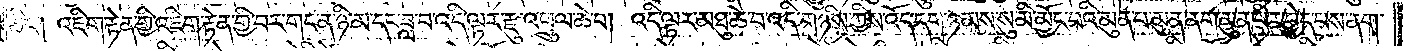ཅིང༌། འཇིག་རྟེན་གྱི་འཇིག་རྟེན་གྱི་བར་གང་ན་ཉི་མ་དང་ཟླ་བ་འདི་ལྟར་རྫུ་འཕྲུལ་ཆེ་བ། འདི་ལྟར་མཐུ་ཆེ་བ་འདི་གཉིས་ཀྱིས་འོད་དག་ཉམས་སུ་མི་མྱོང་བའི་མུན་པ་མུན་ནག་མུན་པར་བྱེད་པས་ནག་
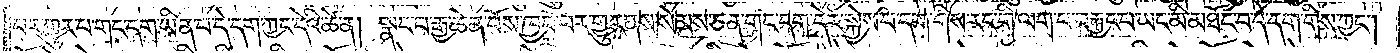པར་གྱུར་པ་གང་དག་ཡིན་པ་དེ་དག་ཀྱང་དེའི་ཚེ་ན། སྣང་བ་རྒྱ་ཆེན་པོས་ཁྱབ་པར་གྱུར་ནས་སེམས་ཅན་གང་དག་དེར་སྐྱེས་པ་དག་གིས་རང་གི་ལག་པ་བརྐྱང་པ་ཡང་མི་མཐོང་བ་དེ་དག་གིས་ཀྱང༌།
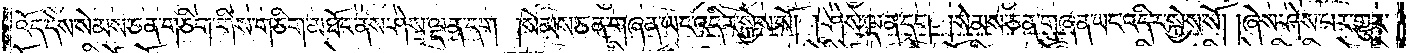འོད་དེས་སེམས་ཅན་གཅིག་གིས་གཅིག་མཐོང་ནས་ཤེས་ལྡན་དག །སེམས་ཅན་གཞན་ཡང་འདིར་སྐྱེས་སོ། །ཤེས་ལྡན་དག །སེམས་ཅན་གཞན་ཡང་འདིར་སྐྱེས་སོ། །ཞེས་ཤེས་པར་གྱུར་
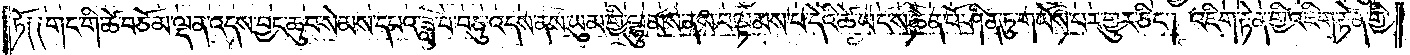ཏོ༑ ༑གང་གི་ཚེ་བཅོམ་ལྡན་འདས་བྱང་ཆུབ་སེམས་དཔའ་ཟླ་བ་བཅུ་འདས་ནས་ཡུམ་གྱི་ལྷུམས་ནས་བལྟམས་པ་དེའི་ཚེ་ཡང་ས་ཆེན་པོ་ཤིན་ཏུ་གཡོས་པར་གྱུར་ཅིང༌། འཇིག་རྟེན་གྱི་འཇིག་རྟེན་གྱི་
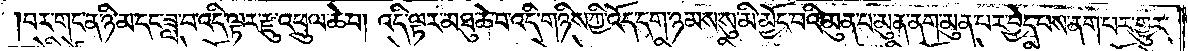བར་གང་ན་ཉི་མ་དང་ཟླ་བ་འདི་ལྟར་རྫུ་འཕྲུལ་ཆེ་བ། འདི་ལྟར་མཐུ་ཆེ་བ་འདི་གཉིས་ཀྱི་འོད་དག་ཉམས་སུ་མི་མྱོང་བའི་མུན་པ་མུན་ནག་མུན་པར་བྱེད་པས་ནག་པར་གྱུར་
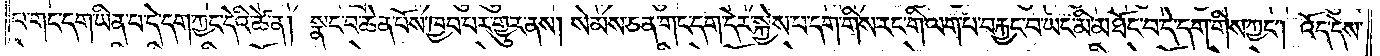པ་གང་དག་ཡིན་པ་དེ་དག་ཀྱང་དེའི་ཚེ་ན། སྣང་བ་ཆེན་པོས་ཁྱབ་པར་གྱུར་ནས། སེམས་ཅན་གང་དག་དེར་སྐྱེས་པ་དག་གིས་རང་གི་ལག་པ་བརྐྱང་བ་ཡང་མི་མཐོང་བ་དེ་དག་གིས་ཀྱང༌། འོད་དེས་
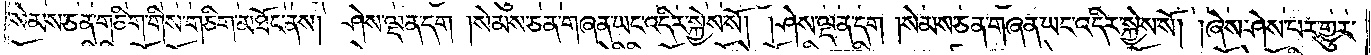སེམས་ཅན་གཅིག་གིས་གཅིག་མཐོང་ནས། ཤེས་ལྡན་དག །སེམས་ཅན་གཞན་ཡང་འདིར་སྐྱེས་སོ། །ཤེས་ལྡན་དག །སེམས་ཅན་གཞན་ཡང་འདིར་སྐྱེས་སོ། །ཞེས་ཤེས་པར་གྱུར་
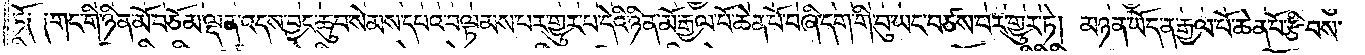ཏོ༑ ༑གང་གི་ཉིན་མོ་བཅོམ་ལྡན་འདས་བྱང་ཆུབ་སེམས་དཔའ་བལྟམས་པར་གྱུར་པ་དེའི་ཉིན་མོ་རྒྱལ་པོ་ཆེན་པོ་བཞི་དག་གི་བུ་ཡང་བཙས་པར་གྱུར་ཏེ། མཉན་ཡོད་ན་རྒྱལ་པོ་ཆེན་པོ་རྩིབས་
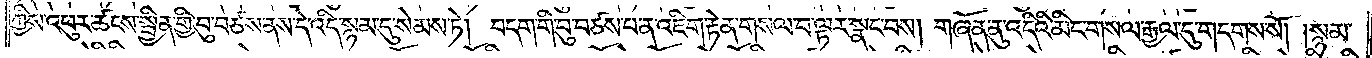ཀྱིས་འཕུར་ཚངས་སྦྱིན་གྱི་བུ་བཙས་ནས་དེ་འདི་སྙམ་དུ་སེམས་ཏེ། བདག་གི་བུ་བཙས་པ་ན་འཇིག་རྟེན་གསལ་བ་ལྟར་སྣང་བས། གཞོན་ནུ་འདིའི་མིང་གསལ་རྒྱལ་དུ་གདགས་སོ། །སྙམ་
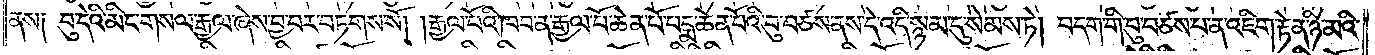ནས༑  བུ་དེའི་མིང་གསལ་རྒྱལ་ཞེས་བྱ་བར་བཏགས་སོ། །རྒྱལ་པོའི་ཁབ་ན་རྒྱལ་པོ་ཆེ་པོ་པདྨ་ཆེན་པོའི་བུ་བཙས་ནས་དེ་འདི་སྙམ་དུ་སེམས་ཏེ། བདག་གི་བུ་བཙས་པ་ན་འཇིག་རྟེན་ཉི་མའི་
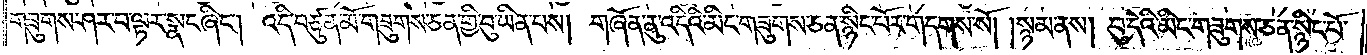གཟུགས་ཤར་བ་ལྟར་སྣང་ཞིང༌། འདི་བཙུན་མོ་གཟུགས་ཅན་གྱི་བུ་ཡིན་པས། གཞོན་ནུ་འདིའི་མིང་གཟུགས་ཅན་སྙིང་པོར་གདགས་སོ། །སྙམ་ནས། བུ་དེའི་མིང་གཟུགས་ཅན་སྙིང་པོ་
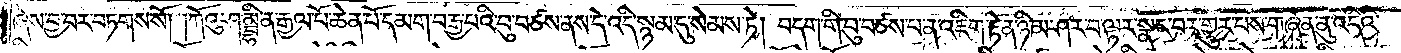ཞེས་བྱ་བར་བཏགས་སོ། །ཀོའུ་ཤམྦྷི་ན་རྒྱལ་པོ་ཆེན་པོ་དམག་བརྒྱ་པའི་བུ་བཙས་ནས་དེ་འདི་སྙམ་དུ་སེམས་ཏེ། བདག་གི་བུ་བཙས་པ་ན་འཇིག་རྟེན་ཉི་མ་ཤར་བ་ལྟར་སྣང་བར་གྱུར་པས་གཞོན་ནུ་འདིའི་
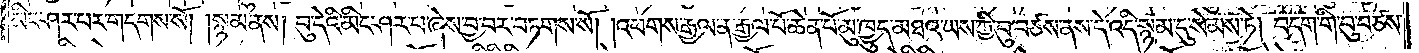མིང་ཤར་བར་གདགས་སོ། །སྙམ་ནས། བུ་དེའི་མིང་ཤར་པ་ཞེས་བྱ་བར་བཏགས་སོ། །འཕགས་རྒྱལ་ན་རྒྱལ་པོ་ཆེན་པོ་མུ་ཁྱུད་མཐའ་ཡས་ཀྱི་བུ་བཙས་ནས་དེ་འདི་སྙམ་དུ་སེམས་ཏེ། བདག་གི་བུ་བཙས་
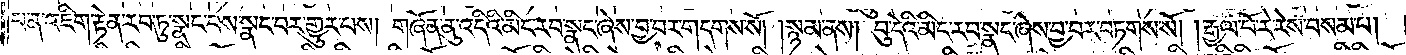པ་ན་འཇིག་རྟེན་རབ་ཏུ་སྣང་བས་སྣང་བར་གྱུར་པས། གཞོན་ནུ་འདིའི་མིང་རབ་སྣང་ཞེས་བྱ་བར་གདགས་སོ། །སྙམ་ནས། བུ་དེའི་མིང་རབ་སྣང་ཞེས་བྱ་བར་བཏགས་སོ། །རྒྱལ་པོ་རེ་རེས་བསམ་པ།
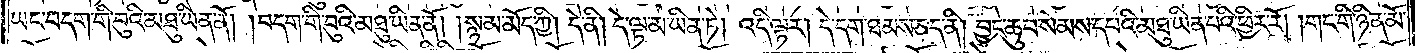ཡང་བདག་གི་བུའི་མཐུ་ཡིན་ནོ། །བདག་གི་བུའི་མཐུ་ཡིན་ནོ། །སྙམ་མོད་ཀྱི། དེ་ནི། དེ་ལྟ་མ་ཡིན་ཏེ། འདི་ལྟར། དེ་དག་ཐམས་ཅད་ནི། བྱང་ཆུབ་སེམས་དཔའི་མཐུ་ཡིན་པའི་ཕྱིར་རོ། །གང་གི་ཉིན་མོ་
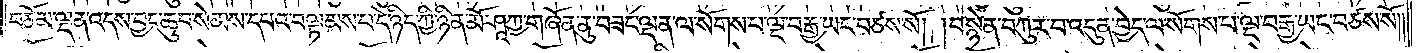བཅོམ་ལྡན་འདས་བྱང་ཆུབ་སེམས་དཔའ་བལྟམས་པ་དེ་ཉིད་ཀྱི་ཉིན་མོ་ཤཱཀྱ་གཞོན་ནུ་བཟང་ལྡན་ལ་སོགས་པ་ལྔ་བརྒྱ་ཡང་བཙས་སོ། །བསྙེན་བཀུར་བ་འདུན་བྱེད་ལ་སོགས་པ་ལྔ་བརྒྱ་ཡང་བཙས་སོ༎
